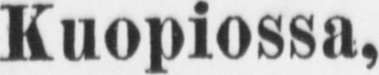Kuopiossa,
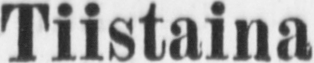Tiistaina
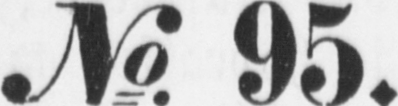№. 95.
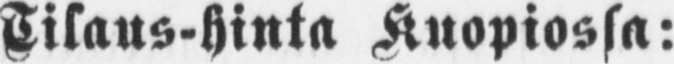Tilaus-hinta Kuopiossa:
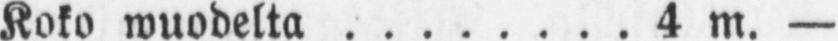Koko wuodelta 4 m. —
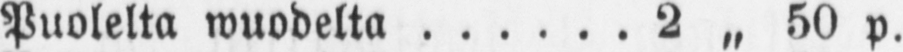Puolelta wuodelta 2 „ 50 p.
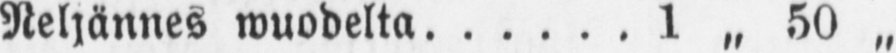Neljännes wuodelta 1 „ 50 „
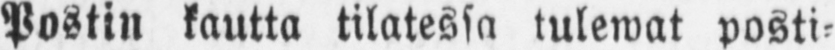Postin kautta tilatessa tulewat posti-
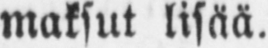maksut lisää.
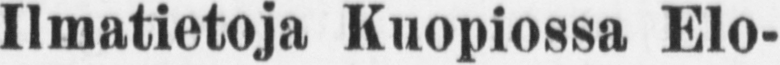Ilmatietoja Kuopiossa. Elo-
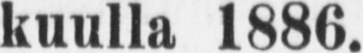Kuulla l886.
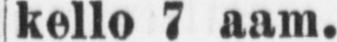kello 7 aam.
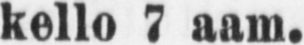kello 7 aam.
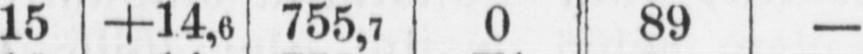15 +14,6 755,7 O 89 —
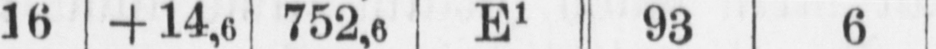15 +14,6 752,6 E¹ 93 6
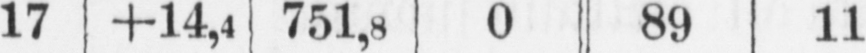17 +14,4 751,8 O 89 11
